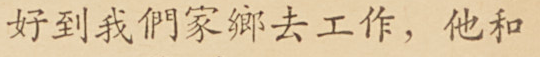好到我們家鄉去工作，他和
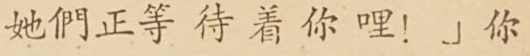她們正等待着你哩！」你
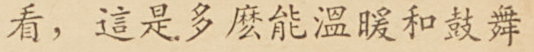看，這是多麼能溫暖和鼓舞
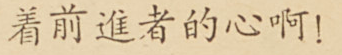着前進者的心啊！
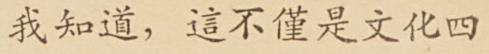我知道，這不僅是文化四
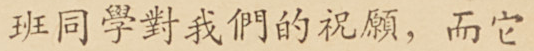班同學對我們的祝願，而它
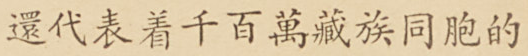還代表着千百萬藏族同胞的
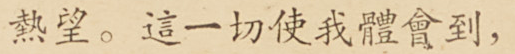熱望。這一切使我體會到，
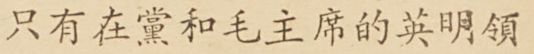只有在黨和毛主席的英明領
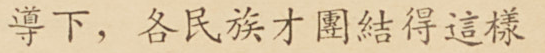導下，各民族才團結得這樣
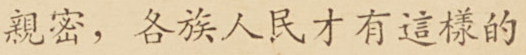親密，各族人民才有這樣的
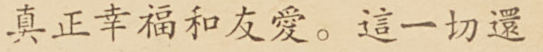真正幸福和友愛。這一切還
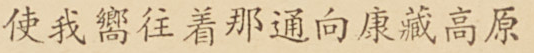使我嚮往着那通向康藏高原
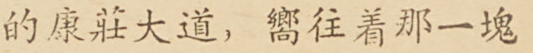的康莊大道，嚮往着那一塊
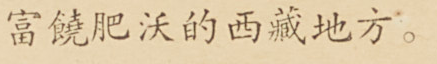富饒肥沃的西藏地方。
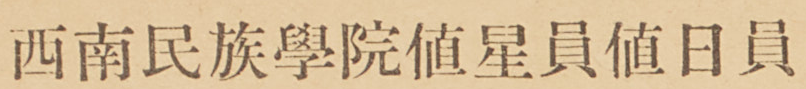西南民族學院値星員値日員
